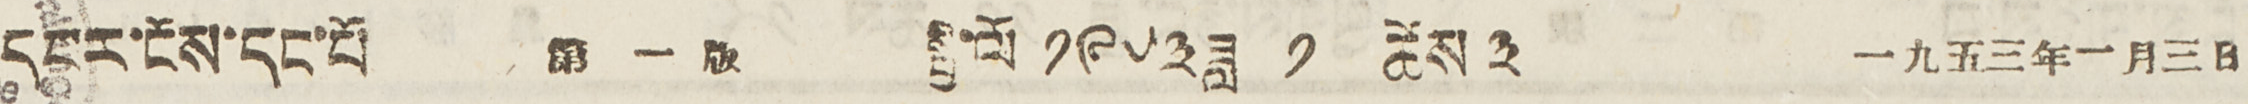དཔར་ངོས་དང་པོ 第 一 版 སྤྱི་ལོ ༡༩༥༣ ཟླ ༡ ཚེས ༣ 一九五三年一月三日
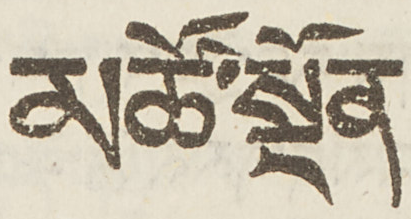མཚོ་སྔོན
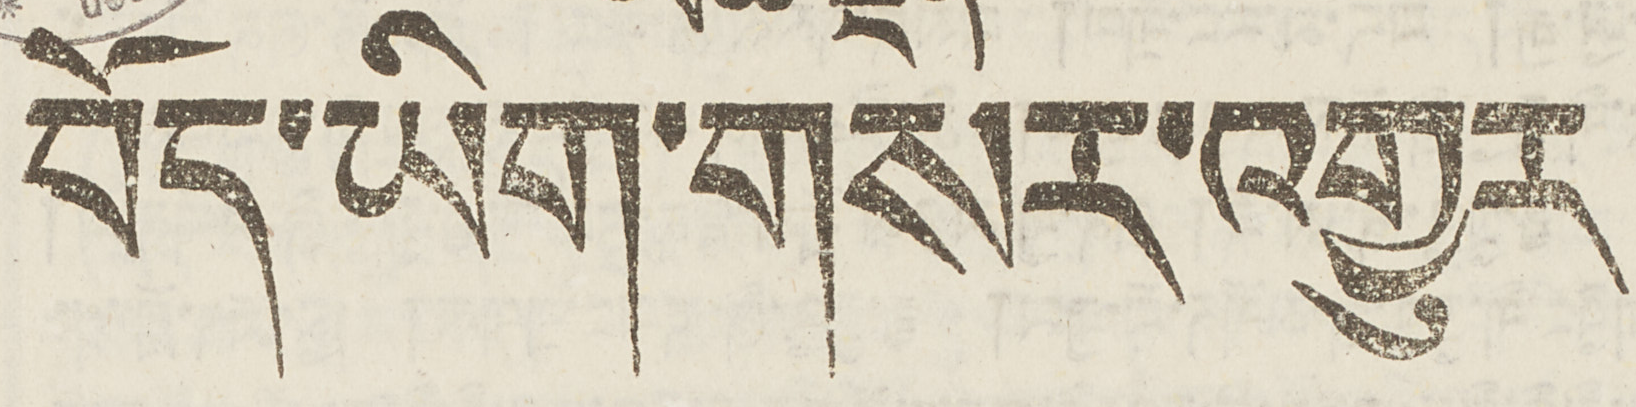བོད་ཡིག་གསར་འགྱུར
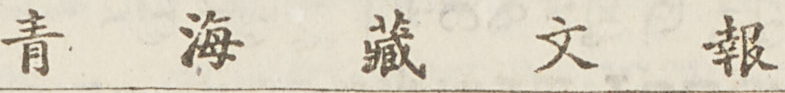青 海 藏 文 報
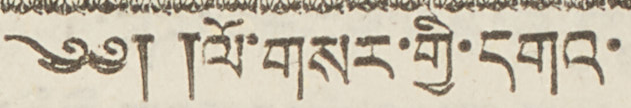༄༅། །ལོ་གསར་གྱི་དགའ་
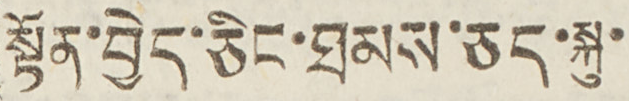སྟོན་བྱེད་ཅིང་ཐབས་ཅད་སྐུ་
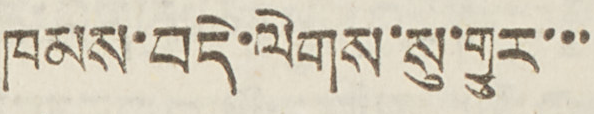ཁམས་བདེ་ལེགས་སུ་གྱུར་་་
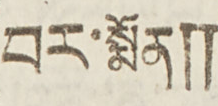བར་སྨོན༎
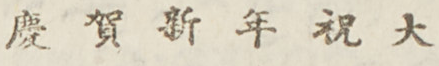慶 賀 新 年 祝 大
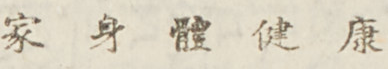家 身 體 健 康
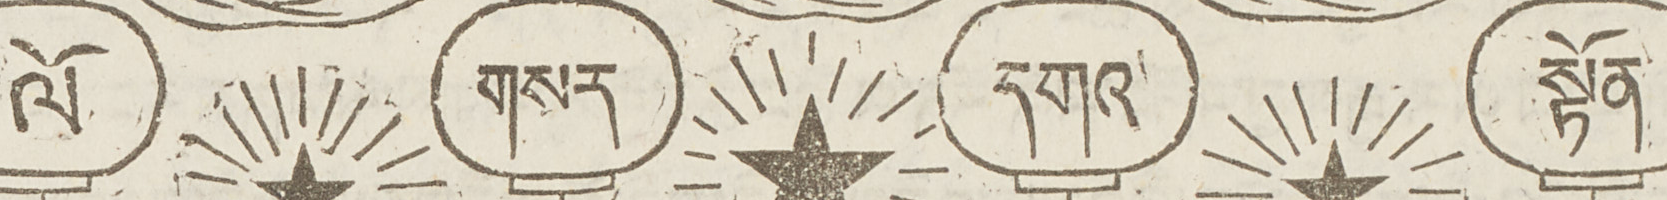ལོ གསར དགའ སྟོན
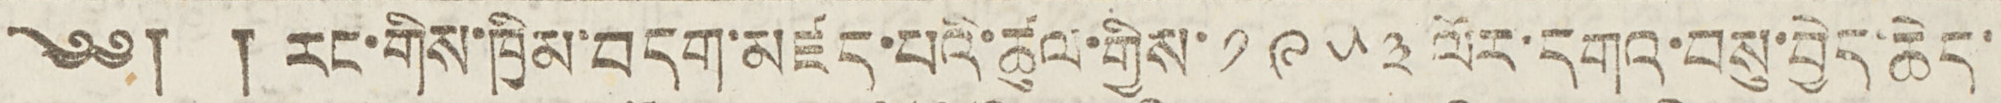༄༅། ། རང་གིས་ཁྱིམ་བདག་མཛད་པའི་ཚུལ་གྱིས་ ༡༩༥༣ ལོར་དགའ་བསུ་བྱེད་ཆེད་
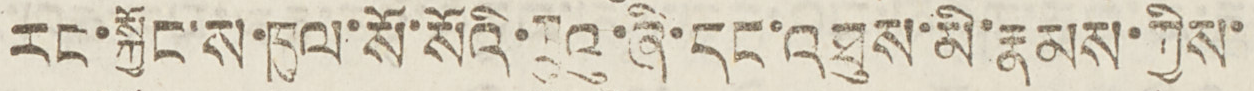རང་སྐྱོང་ས་ཁུལ་སོ་སོའི་ཀྲུའུ་ཞི་དང་འཐུས་མི་རྣམས་ཀྱིས་
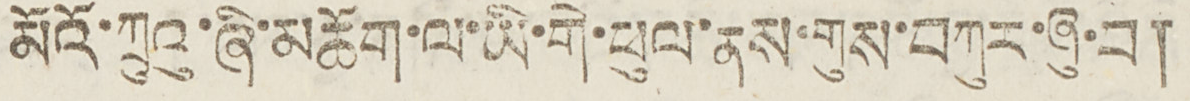མོའོ་ཀྲུའུ་ཞི་མཆོག་ལ་ཡི་གེ་ཕུལ་ནས་གུས་བཀུར་ཞུ་བ།
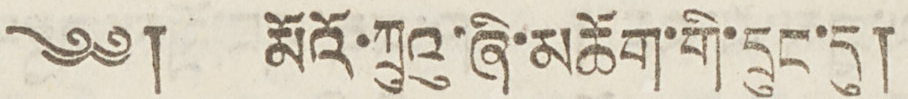༄༅། མོའོ་ཀྲུའུ་ཞི་མཆོག་གི་དྲུང་དུ།
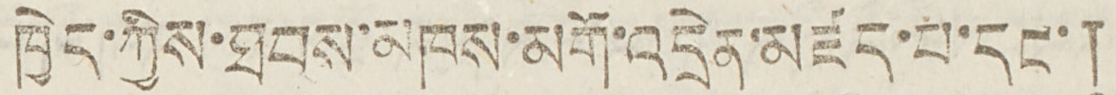ཁྱེད་ཀྱིས་ཐབས་མཁས་མགོ་འདྲེན་མཛད་པ་དང་།
